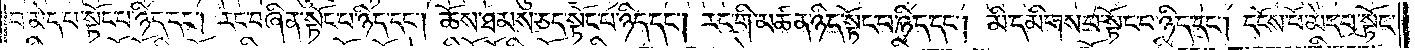བ་མེད་པ་སྟོང་པ་ཉིད་དང༌། རང་བཞིན་སྟོང་པ་ཉིད་དང༌། ཆོས་ཐམས་ཅད་སྟོང་པ་ཉིད་དང༌། རང་གི་མཚན་ཉིད་སྟོང་པ་ཉིད་དང༌། མི་དམིགས་པ་སྟོང་པ་ཉིད་དང༌། དངོས་པོ་མེད་པ་སྟོང་
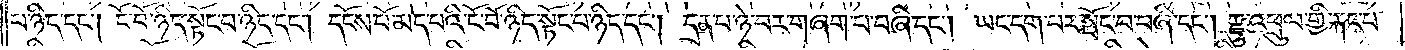པ་ཉིད་དང༌། ངོ་བོ་ཉིད་སྟོང་པ་ཉིད་དང༌། དངོས་པོ་མེད་པའི་ངོ་བོ་ཉིད་སྟོང་པ་ཉིད་དང༌། དྲན་པ་ཉེ་བར་བཞག་པ་བཞི་དང༌། ཡང་དག་པར་སྤོང་བ་བཞི་དང༌། རྫུ་འཕྲུལ་གྱི་རྐང་པ་
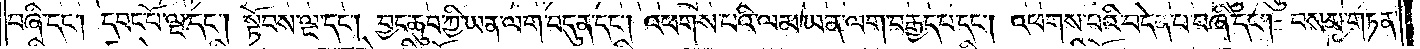བཞི་དང༌། དབང་པོ་ལྔ་དང༌། སྟོབས་ལྔ་དང༌། བྱང་ཆུབ་ཀྱི་ཡན་ལག་བདུན་དང༌། འཕགས་པའི་ལམ་ཡན་ལག་བརྒྱད་པ་དང༌། འཕགས་པའི་བདེན་བ་བཞི་དང༌། བསམ་གཏན་
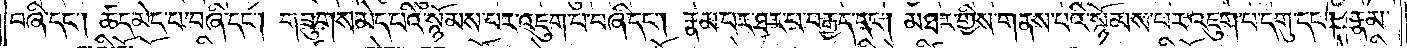བཞི་དང༌། ཚད་མེད་པ་བཞི་དང༌། གཟུགས་མེད་པའི་སྙོམས་པར་འཇུག་པ་བཞི་དང༌། རྣམ་པར་ཐར་པ་བརྒྱད་དང༌། མཐར་གྱིས་གནས་པའི་སྙོམས་པར་འཇུག་པ་དགུ་དང༌། རྣམ་
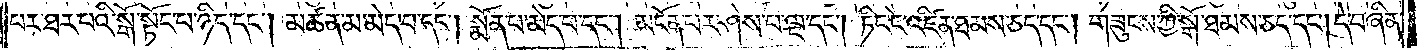པར་ཐར་པའི་སྒོ་སྟོང་པ་ཉིད་དང༌། མཚན་མ་མེད་པ་དང༌། སྨོན་པ་མེད་པ་དང༌། མངོན་པར་ཤེས་པ་ལྔ་དང༌། ཏིང་ངེ་འཛིན་ཐམས་ཅད་དང༌། གཟུངས་ཀྱི་སྒོ་ཐམས་ཅད་དང༌། དེ་བཞིན་
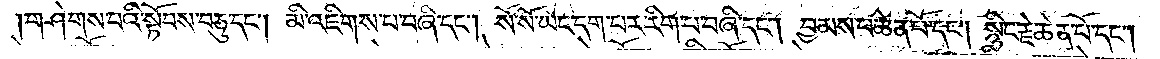གཤེགས་པའི་སྟོབས་བཅུ་དང༌། མི་འཇིགས་པ་བཞི་དང༌། སོ་སོ་ཡང་དག་པར་རིག་པ་བཞི་དང༌། བྱམས་པ་ཆེན་པོ་དང༌། སྙིང་རྗེ་ཆེན་པོ་དང༌།
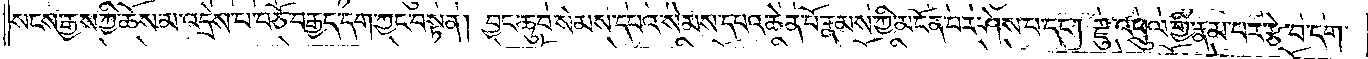སངས་རྒྱས་ཀྱི་ཆོས་མ་འདྲེས་པ་བཅོ་བརྒྱད་དག་ཀྱང་བསྟན། བྱང་ཆུབ་སེམས་དཔའ་སེམས་དཔའ་ཆེན་པོ་རྣམས་ཀྱི་མངོན་པར་ཤེས་པ་དང༌། རྫུ་འཕྲུལ་གྱིས་རྣམ་པར་རྩེ་བ་དག་
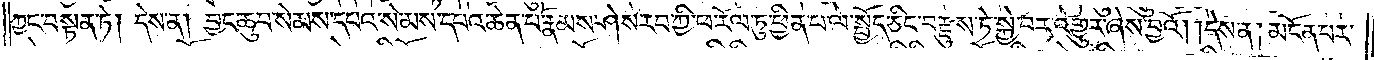ཀྱང་བསྟན་ཏེ། དེས་ན། བྱང་ཆུབ་སེམས་དཔའ་སེམས་དཔའ་ཆེན་པོ་རྣམས་ཤེས་རབ་ཀྱི་ཕ་རོལ་ཏུ་ཕྱིན་པ་ལ་སྤྱོད་ཅིང་བརྫུས་ཏེ་སྐྱེ་བར་འགྱུར་ཞེས་བྱའོ། །དེས་ན། མངོན་པར་
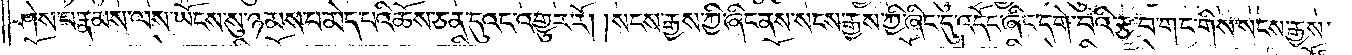ཤེས་པ་རྣམས་ལས་ཡོངས་སུ་ཉམས་པ་མེད་པའི་ཆོས་ཅན་དུའང་འགྱུར་རོ། །སངས་རྒྱས་ཀྱི་ཞིང་ནས་སངས་རྒྱས་ཀྱི་ཞིང་དུ་འདོང་ཞིང་དགེ་བའི་རྩ་བ་གང་གིས་སངས་རྒྱས་
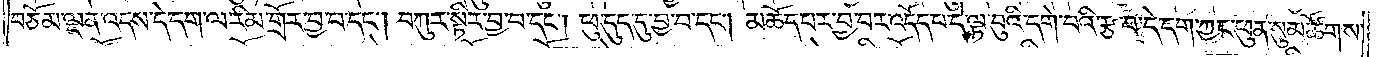བཅོམ་ལྡན་འདས་དེ་དག་ལ་རིམ་གྲོར་བྱ་བ་དང༌། བཀུར་སྟིར་བྱ་བ་དང༌། ཕུ་དུད་དུ་བྱ་བ་དང༌། མཆོད་པར་བྱ་བར་འདོད་པ་དེ་ལྟ་བུའི་དགེ་བའི་རྩ་བ་དེ་དག་ཀྱང་ཕུན་སུམ་ཚོགས་
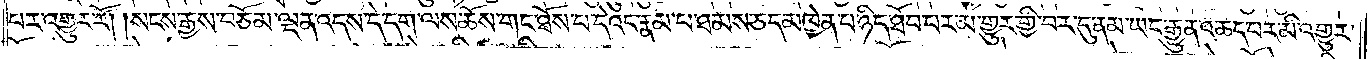པར་འགྱུར་རོ། །སངས་རྒྱས་བཅོམ་ལྡན་འདས་དེ་དག་ལས་ཆོས་གང་ཐོས་པ་དེའང་རྣམ་པ་ཐམས་ཅད་མཁྱེན་པ་ཉིད་ཐོབ་པར་མ་གྱུར་གྱི་བར་དུ་ནམ་ཡང་རྒྱུན་ཆད་པར་མི་འགྱུར་
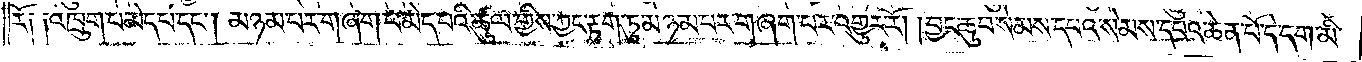རོ༏ ༏འཁྲུག་པ་མེད་པ་དང༌། མཉམ་པར་གཞག་པ་མེད་པའི་ཚུལ་གྱིས་ཀྱང་རྟག་ཏུ་མཉམ་པར་བཞག་པར་འགྱུར་རོ། །བྱང་ཆུབ་སེམས་དཔའ་སེམས་དཔའ་ཆེན་པོ་དེ་དག་མི་
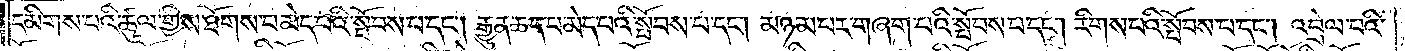དམིགས་པའི་ཚུལ་གྱིས་ཐོགས་པ་མེད་པའི་སྤོབས་པ་དང༌། རྒྱུན་ཆད་པ་མེད་པའི་སྤོབས་པ་དང༌། མཉམ་པར་གཞག་པའི་སྤོབས་པ་དང༌། རིགས་པའི་སྤོབས་པ་དང༌། འབྲེལ་བའི་
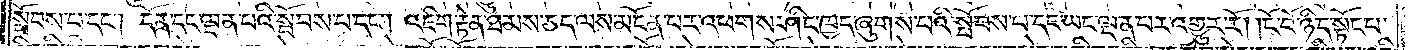སྤོབས་པ་དང༌། དོན་དང་ལྡན་པའི་སྤོབས་པ་དང༌། འཇིག་རྟེན་ཐམས་ཅད་ལས་མངོན་པར་འཕགས་ཤིང་ཁྱད་ཞུགས་པའི་སྤོབས་པ་དང་ཡང་ལྡན་པར་འགྱུར་རོ། །ངོ་བོ་ཉིད་སྟོང་པ་
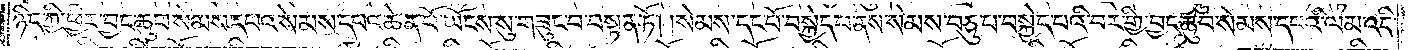ཉིད་ཀྱི་ཕྱིར་བྱང་ཆུབ་སེམས་དཔའ་སེམས་དཔའ་ཆེན་པོ་ཡོངས་སུ་བཟུང་བ་བསྟན་ཏོ། །སེམས་དང་པོ་བསྐྱེད་པ་ནས་སེམས་བཅུ་པ་བསྐྱེད་པའི་བར་གྱི་བྱང་ཆུབ་སེམས་དཔའི་ལམ་འདི་
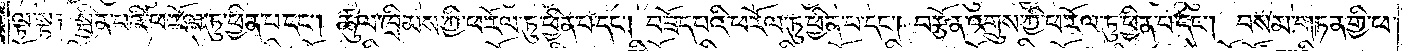ལྟ་སྟེ༑ སྦྱིན་པའི་ཕ་རོལ་ཏུ་ཕྱིན་པ་དང༌། ཚུལ་ཁྲིམས་ཀྱི་ཕ་རོལ་ཏུ་ཕྱིན་པ་དང༌། བཟོད་པའི་ཕ་རོལ་ཏུ་ཕྱིན་པ་དང༌། བརྩོན་འགྲུས་ཀྱི་ཕ་རོལ་ཏུ་ཕྱིན་པ་དང༌། བསམ་གཏན་གྱི་ཕ་
